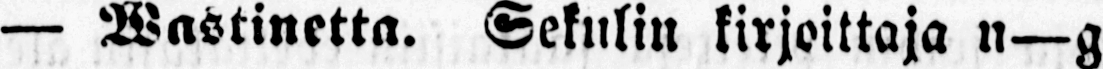— Wastinetta. Sekulin kirjoittaja n—g
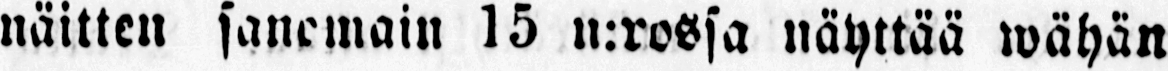näitten sanemain 15 n:rossa näyttää wähän
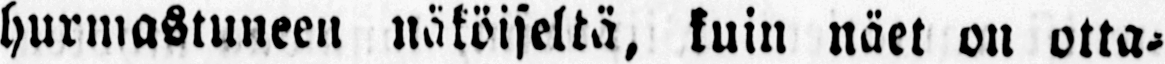hurmastuneen näköiseltä, kuin näet on otta-
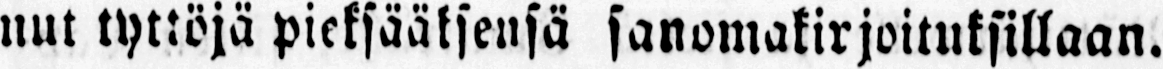nut tyttöjä pieksääksensä sanomakirjoituksillaan.
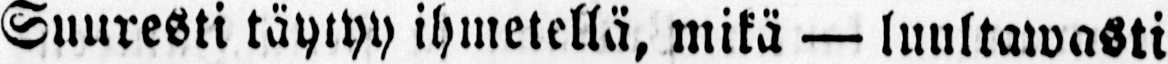Suuresti täytyy ihmetellä, mikä — luultawasti
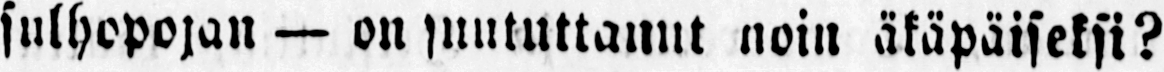sulhopojan — on suututtanut noin äkäpäiseksi?
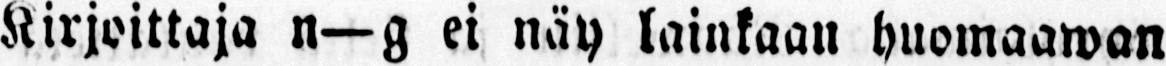Kirjoittaja n—g ei näy lainkaan huomaawan
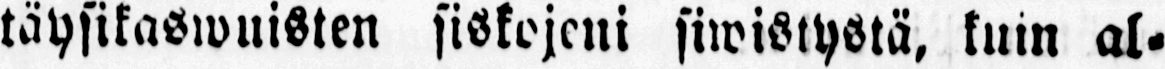täysikaswuisten siskojeni siwistystä, kuin al-
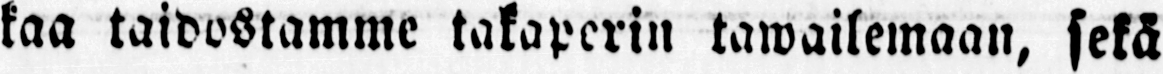kaa taidostamme takaperin tawailemaan, sekä
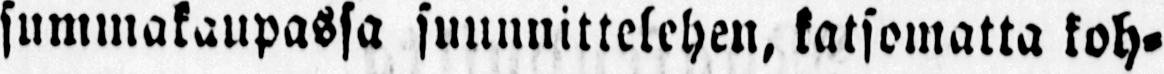summakaupassa suunnittelehen, katsomatta koh-
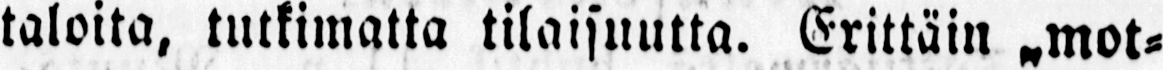taloita, tutkimatta tilaisuutta. Erittäin „mot-
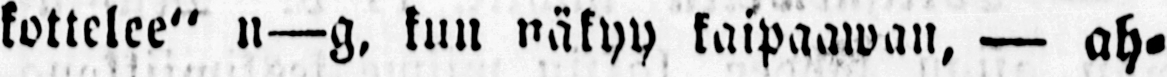kottelee" n—g, kun näkyy kaipaawan, — ah-
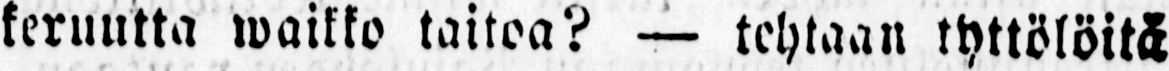keruutta waikko taitoa? — tehtaan tyttölöitä
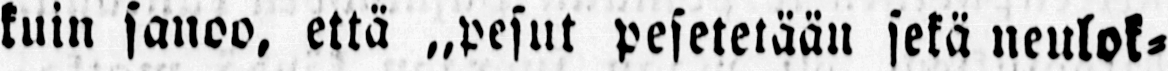kuin sanoo, että „pesut pesetetään sekä neulok-
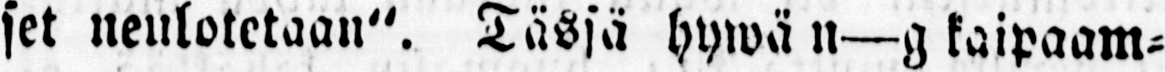set neulotetaan". Tässä hywä n—g kaipaam-
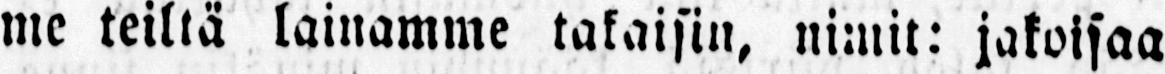me teiltä lainamme takaisin, nimit: jakoisaa
